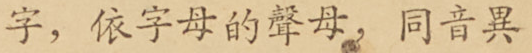字，依字母的聲母，同音異
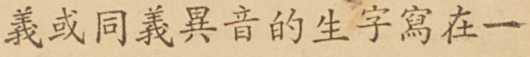義或同義異音的生字寫在一
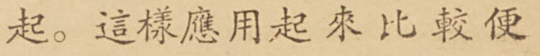起。這樣應用起來比較便
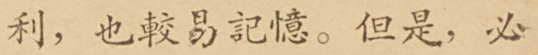利，也較易記憶。但是，必
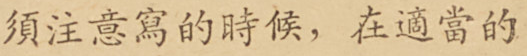須注意寫的時候，在適當的
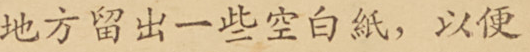地方留出一些空白紙，以便
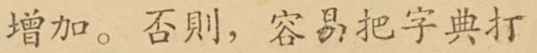增加。否則，容易把字典打
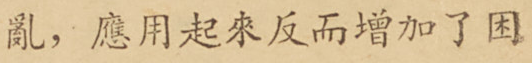亂，應用起來反而增加了困
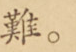難。
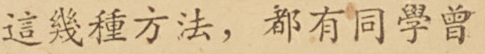這幾種方法，都有同學曾
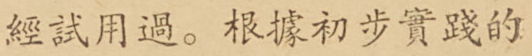經試用過。根據初步實踐的
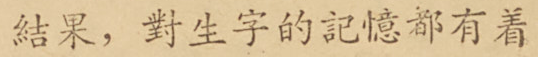結果，對生字的記憶都有着
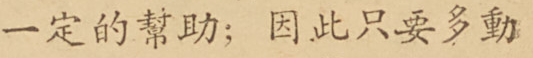一定的幫助；因此只要多動
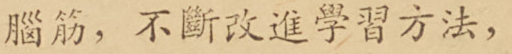腦筋，不斷改進學習方法，
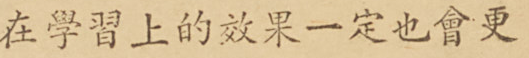在學習上的效果一定也會更
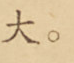大。
